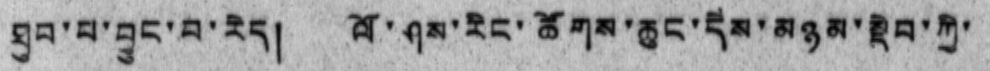ཐུབ་པ་བྱུང་བ་རེད། ལོ་ཤས་རིང་ཚོགས་ཆུང་དེས་མཉམ་སྡེབ་ཀྱི་
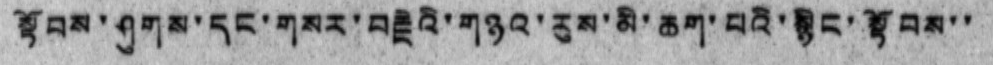སྟོབས་ཤུགས་དང་གསར་བརྗེའི་གཉའ་རུས་མི་ཆག་པའི་སྙིང་སྟོབས་་
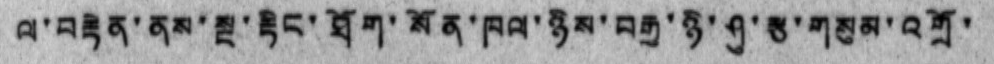ལ་བརྟེན་ནས་སྔ་རྟིང་ཐོག་སོན་ཁལ་ཉིས་བརྒྱ་ཉི་ཤུ་རྩ་གསུམ་འགྲོ་
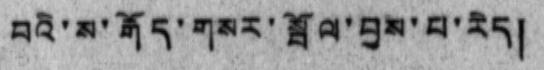བའི་ས་རྒོད་གསར་སྦོལ་བྱས་པ་རེད།
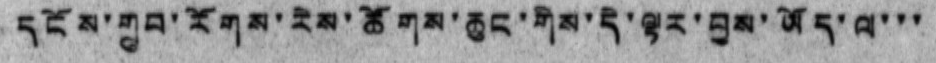དངོས་གྲུབ་རོགས་རེས་ཚོགས་ཆུང་གིས་དེ་ལྟར་བྱས་ཡོད་ལ་་་
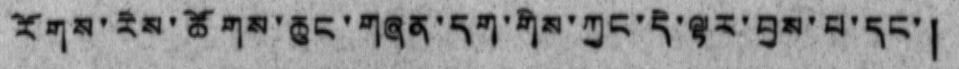རོགས་རེས་ཚོགས་ཆུང་གཞན་དག་གིས་ཀྱང་དེ་ལྟར་བྱས་པ་དང་།
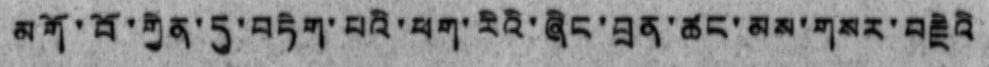མགོ་བོ་གྱེན་དུ་བཏེག་པའི་ཕག་རིའི་ཞིང་བྲན་ཚང་མས་གསར་བརྗེའི
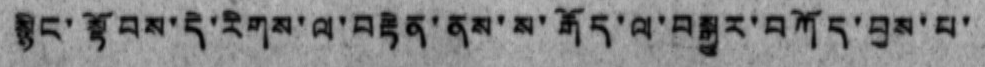སྙིང་སྟོབས་དེ་རིགས་ལ་བརྟེན་ནས་ས་རྒོད་ལ་བསྒྱུར་བཀོད་བྱས་པ་
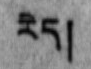རེད།
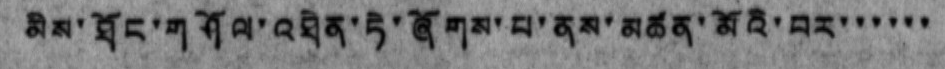མིས་ཐོང་གཤོལ་འཐེན་ཏེ་ཞོགས་པ་ནས་མཚན་མོའི་བར་་་་་་
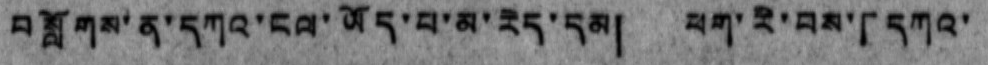བསློགས་ན་དཀའ་ངལ་ཡོད་པ་མ་རེད་དམ། ཕག་རི་བས་「དཀའ་
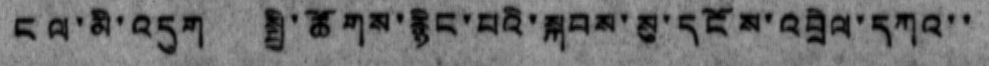ངལ་མི་འདུག སྤྱི་ཚོགས་རྙིང་པའི་སྐབས་སུ་དངོས་འབྲེལ་དཀའ་་
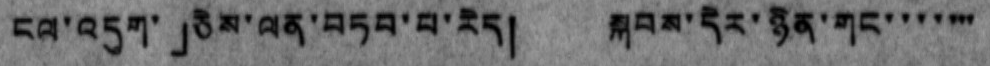ངལ་འདུག」ཅེས་ལན་བཏབ་པ་རེད། སྐབས་དེར་ཉིན་གང་་་་་་་
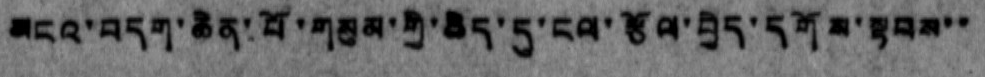མངའ་བདག་ཆེན་པོ་གསུམ་གྱི་ཆེད་དུ་ངལ་རྩོལ་བྱེད་དགོས་སྟབས་་
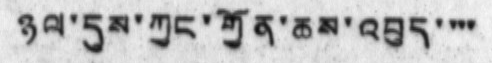ཉུལ་དུས་ཀྱང་གྱོན་ཆས་འབུད་་་་
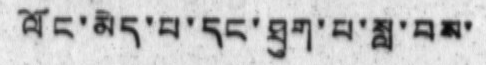ལོང་མེད་པ་དང་ཐུག་པ་སླ་བས་
